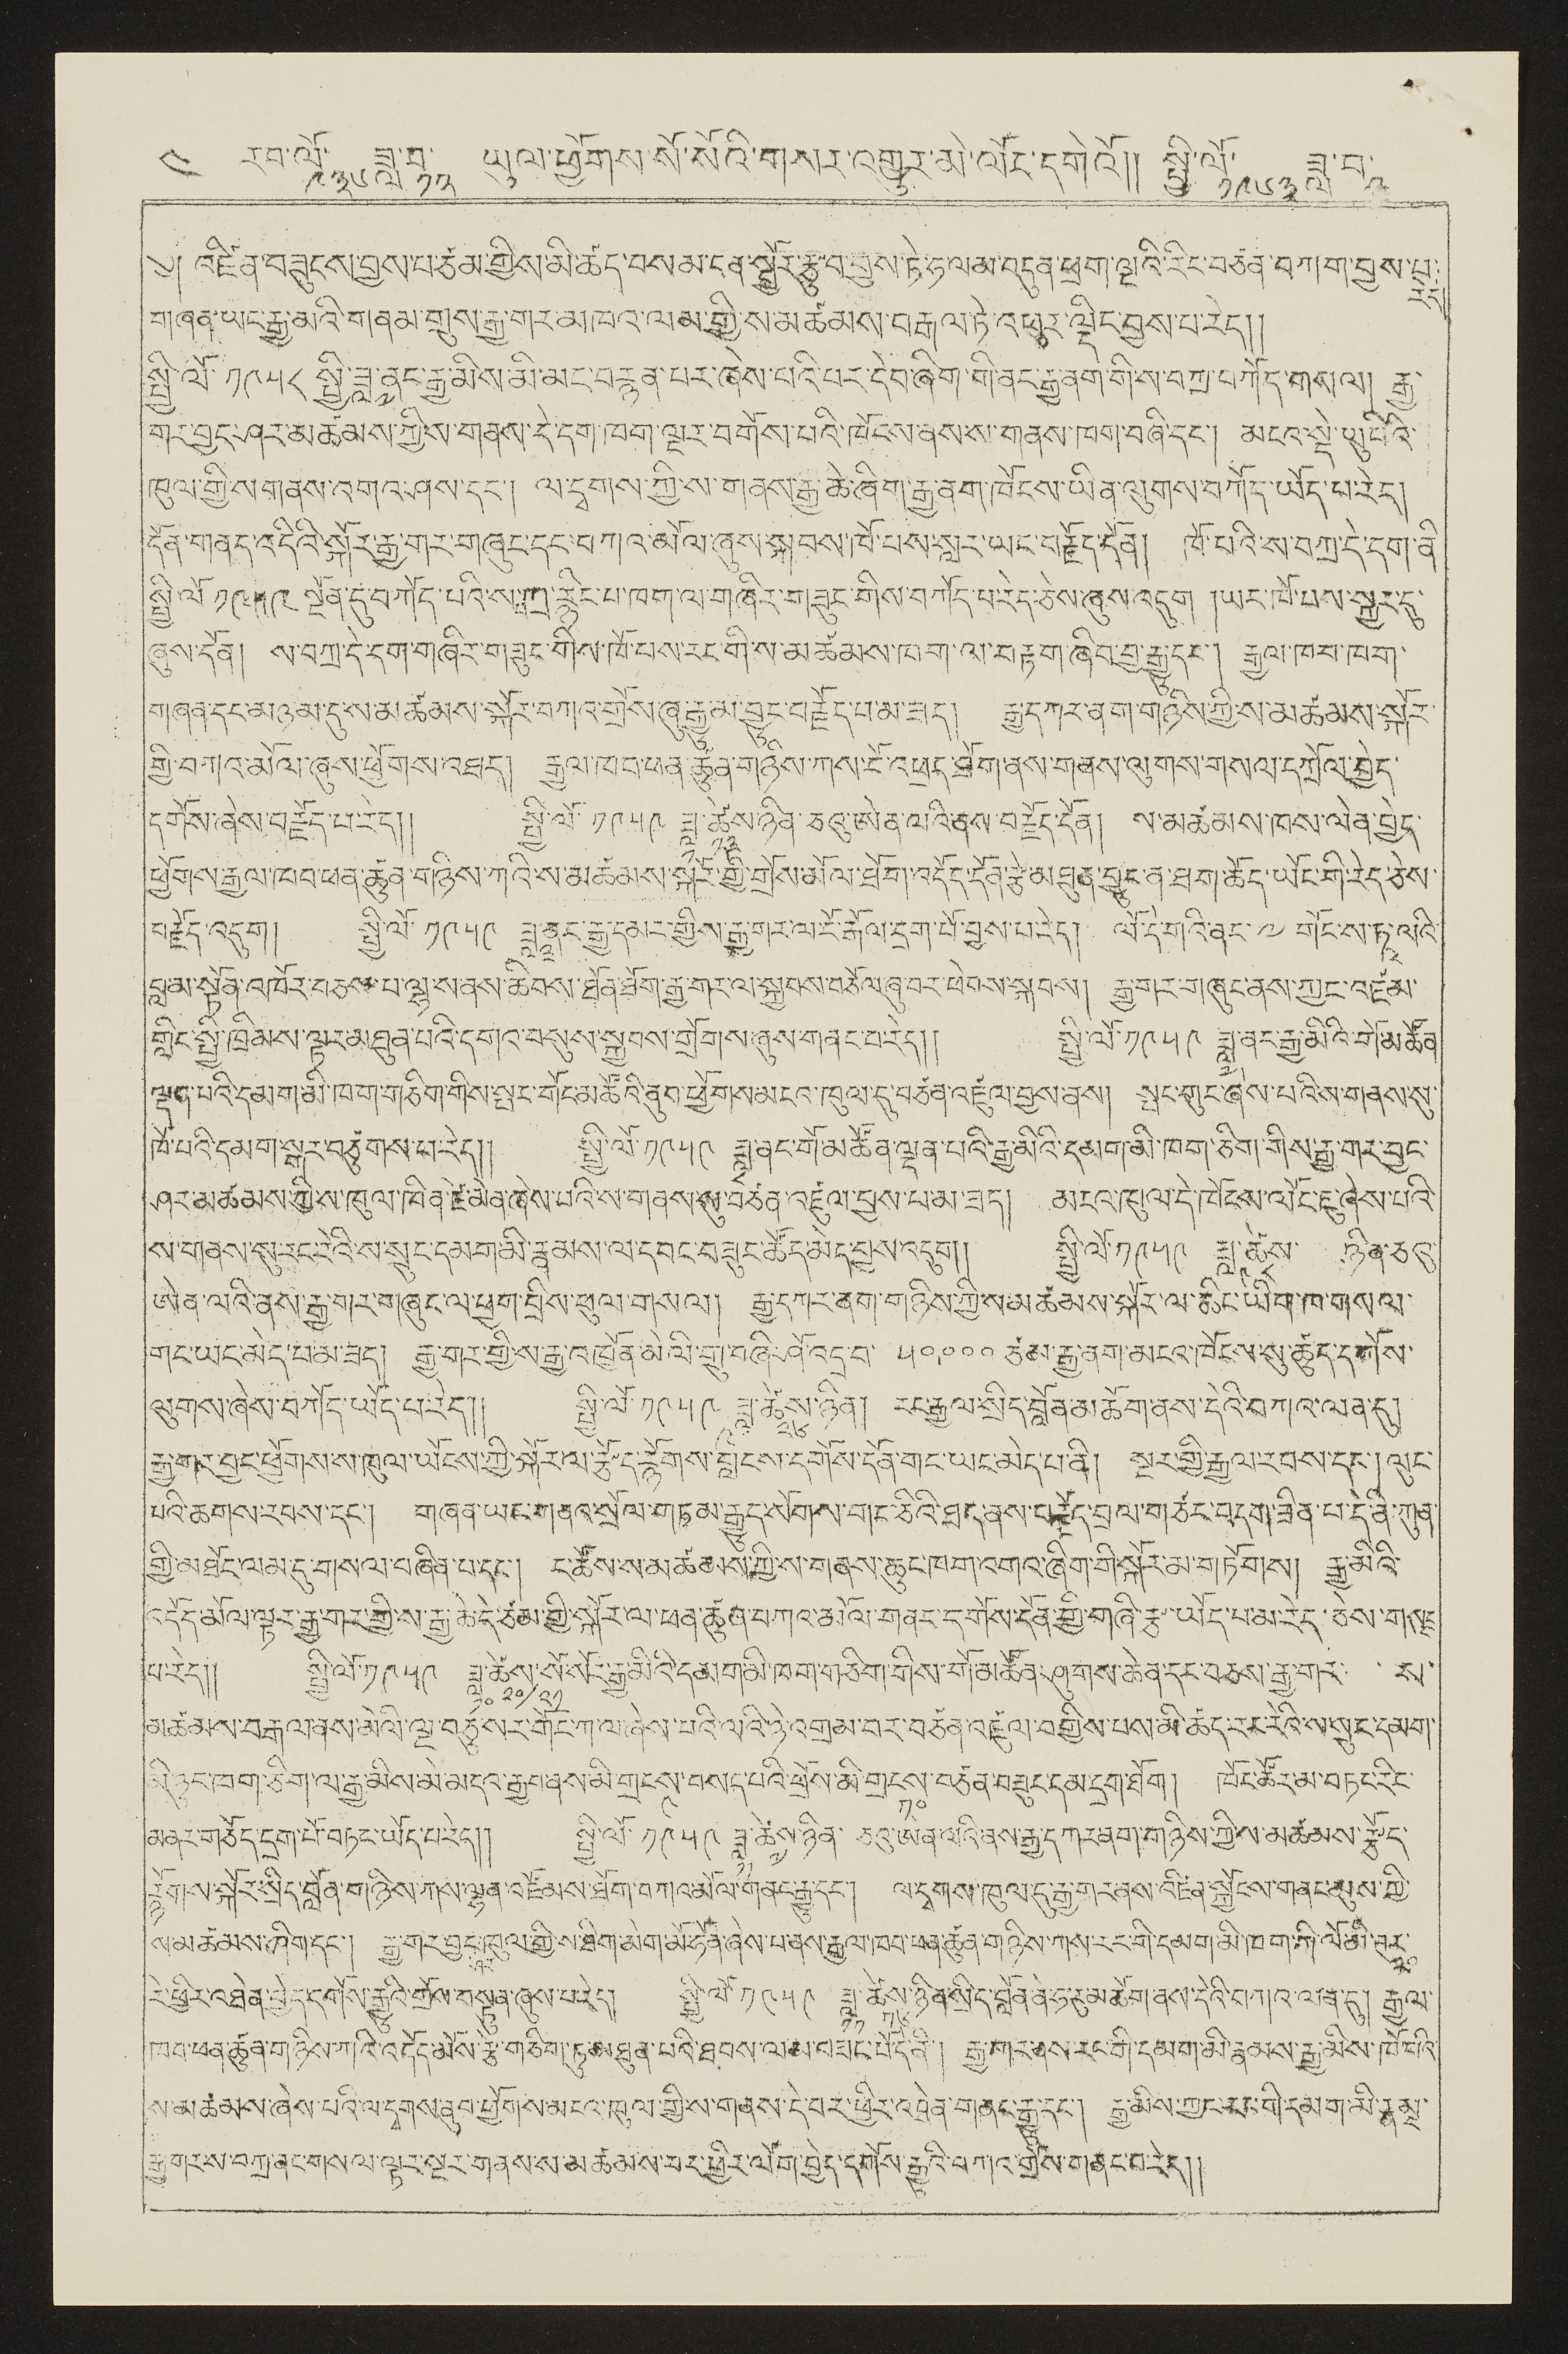༤ རབ་ལོ་
༩༣༦
ཟླ་བ་
༡༢
ཡུལ་ཕྱོགས་སོ་སོའི་གསར་འགྱུར་མེ་ལོང་དགེའོ།། སྤྱི་ལོ་
༡༩༦༣
ཟླ་བ་
༢
༄། འཛིན་བཟུངས་བྱས་ལ་ཙམ་གྱིས་མི་ཚད་བས་མ་ངན་སྦྱོར་རྩུ་བ་བྱས་ཏེ་ཧ་ལམ་བདུན་ཕྲག་ལྔའི་རིང་བཙན་བཀག་བྱས་པ་
རེད་
གཞན་ཡང་རྒྱ་མའི་གནམ་གྲུས་རྒྱ་གར་མཁའ་ལམ་གྱི་ས་མཚམས་བརྒལ་ཏེ་འཕུར་ལྡིང་བྱས་པ་རེད།།
སྤྱི་ལོ་ ༡༩༥༨ སྤྱི་ཟླ་
༧
ནང་རྒྱ་མིས་མི་མང་བརྙན་པར་ཞེས་པའི་པར་དེབ་ཞིག་གི་ནང་རྒྱ་ནག་གི་ས་བཀྲ་བཀོད་གསལ། རྒྱ་
གར་བྱང་ཤར་མཚམས་ཀྱིས་གནས་དེ་དག་ཁག་ལྔར་བགོས་པའི་ཁོངས་ནས་ས་གནས་ཁག་བཞི་དང་། མངའ་སྡེ་ཡུཔིའི་
ཁུལ་གྱིས་གནས་འགའ་ཤས་དང་། ལ་དྭགས་ཀྱི་ས་གནས་རྒྱ་ཆེ་ཞིག་རྒྱ་ནག་ཁོངས་ཡིན་ལུགས་བཀོད་ཡོད་པ་རེད།
དོན་གནད་འདིའི་སྐོར་རྒྱ་གར་གཞུང་དང་བཀའ་མོལ་ཞུས་སྐབས་ཁོ་པས་སླར་ཡང་བརྗོད་དོན། ཁོ་པའི་ས་བཀྲ་དེ་དག་ནི་
སྤྱི་ལོ་ ༡༩༥༩ སྔོན་དུ་བཀོད་པའི་ས་བཀྲ་སྙིང་པ་ཁག་ལ་གཞིར་གཟུང་གིས་བཀོད་པ་རེད་ཅེས་ཞུས་འདུག །ཡང་ཁོ་པས་སྐྱར་དུ་
ཞུས་དོན། ས་བཀྲ་དེ་དག་གཞིར་གཟུང་གིས་ཁོ་པས་རང་གི་ས་མཚམས་ཁག་ལ་བརྟག་ཞིབ་བྱ་རྒྱུ་དང་། རྒྱལ་ཁབ་ཁག་
གཞན་དང་མཉམ་དུ་ས་མཚམས་སྐོར་བཀའ་གྲོས་ཞུ་རྒྱུ་མ་བྱུང་བརྗོད་པ་མ་ཟད། རྒྱ་དཀར་ནག་གཉིས་ཀྱི་ས་མཚམས་སྐོར་
གྱི་བཀའ་མོལ་ཞུས་ཕྱོགས་འཐད། རྒྱལ་ཁབ་ཕན་ཚུལ་གཉིས་ཀས་ངོ་འཕྲད་ཐོག་ནས་གནས་ལུགས་གསལ་དཀྲོལ་བྱེད་
དགོས་ཞེས་བརྗོད་པ་རེད།། སྤྱི་ལོ་ ༡༩༥༩ ཟླ་
༡
ཚེས་
༡༢
ཉིན་ཅའུ་ཨེན་ལའི་ནས་བརྗོད་དོན། ས་མཚམས་ཁས་ལེན་བྱེད་
ཕྱོགས་རྒྱལ་ཁབ་ཕན་ཚུན་གཉིས་ཀའི་ས་མཚམས་སྐོར་གྱི་གྲོས་མིལ་ཐོག་འདོད་དོན་རྩེ་མཐུན་བྱུང་ན་ཐག་ཆོད་ཡོང་གོ་རེད་ཅེས་
བརྗོད་འདུག། སྤྱི་ལོ་ ༡༩༥༩ ཟླ་
༣
ནང་རྒྱ་དམང་གྱིས་རྒྱ་གར་ལ་ངོ་རྒོལ་དྲག་པོ་བྱས་པ་རེད། ལོ་དེ་གའི་ནང་༸གོང་ས་ཏཱ་ལའི་
བླ་མ་སྟོན་འཁོར་བཅས་ལ་ལྷ་ས་ནས་ཆིབས་ཐོན་ཐོག་རྒྱ་གར་ལ་སྐྱབས་བཅོལ་ཞུ་བར་ཕེབས་སྐབས། རྒྱ་གར་གཞུང་ནས་ཀྱང་འཛམ་
གླིང་སྤྱི་ཁྲིམས་ལྟར་མཐུན་པའི་དགའ་བསུས་སྐྱབས་གྲོགས་ཞུས་གནང་བ་རེད།། སྤྱི་ལོ་ ༡༩༥༩ ཟླ་
༧
ནང་རྒྱ་མའི་གོ་མཚོན
ལྡན་པའི་དམག་མི་ཁག་གཅིག་གིས་སྤར་གོང་མཚོའི་ནུབ་ཕྱོགས་མངའ་ཁུལ་དུ་བཙན་འཛུལ་བྱས་ནས། སྤང་གུང་ཞེས་པའི་ས་གནས་སུ་
ཁོ་པའི་དམག་སྒར་བཙུགས་པ་རེད།། སྤྱི་ལོ་ ༡༩༥༩ ཟླ་
༨
ནང་གོ་མཚོན་ལྡན་པའི་རྒྱ་མིའི་དམག་མི་ཁག་ཅིག་གིས་རྒྱ་གར་བྱང་
ཤར་མཚམས་ཀྱི་ས་ཁུལ་ཁིན་ཛེ་མེན་ཞེས་པའི་ས་གནས་སུ་བཙན་འཛུལ་བྱས་པ་མ་ཟད། མངའ་ཁུལ་དེ་ཁོངས་ལོང་ཇུ་ཞེས་པའི་
ས་གནས་སུ་རང་རེའི་ས་སྲུང་དམག་མི་རྣམས་ལ་དབང་བཟུང་ཚོད་མེད་བྱས་འདུག། སྤིུ་ལོ་ ༡༩༥༩ ཟླ་
༩
ཚེས་
༨
ཉིན་ཅའུ་
ཨེན་ལའི་ནས་རྒྱ་གར་གཞུང་པ་ཕྱག་བྲིས་ཕུལ་གསལ། རྒྱ་དཀར་ནག་གཉིས་ཀྱི་ས་མཚམས་སྐོར་ལ་ཆིང་ཡིག་ཁ་གསལ་
གང་ཡང་མེད་པ་མ་ཟད། རྒྱ་གར་གྱི་ས་རྒྱ་འཁྱོན་མེ་ལི་གྲུ་བཞི་ཤི་འདྲ་བ་ ༥༠,༠༠༠ ཙམ་རྒྱ་ནག་མངའ་ཁོངས་སུ་ཚུད་དགོས་
ལུགས་ཞེས་བཀོད་ཡོད་པས་རེད།། སྤྱི་ལོ་ ༡༩༥༩ ཟླ་
༩
ཚེས་
༢༦
ཉིན། རང་རྒྱལ་སྲིད་བློན་མཆོག་ནས་དེའི་བཀའ་ལན་དུ།
རྒྱ་གར་བྱང་ཕྱོགས་ས་ཁུལ་ཡོངས་ཀྱི་སྐོར་ལ་རྩོད་རྙོགས་བླངས་དགོས་དོན་གང་ཡང་མེད་པ་ནི། སྔར་གྱི་རྒྱལ་རབས་དང་། ལུང་
པའི་ཆགས་རབས་དང་། གཞན་ཡང་གནའ་སྲོལ་གཏམ་རྒྱུད་སོགས་གང་ཅིའི་ཐད་ནས་བརྗེད་བྲལ་གཙང་བདག་ཟིན་པ་དེ་ནི་ཀུན་
གྱི་མཐོང་ལན་དུ་གསལ་བཞིན་པ་དང་། ང་ཚོས་ས་མཚམས་ཀྱི་ས་གནས་ཆུང་ཁག་འགའ་ཞིག་གི་སྐོར་མ་གཏོགས། རྒྱ་མིའི་
འདོད་མོལ་ལྟར་རྒྱ་གར་གྱིས་རྒྱ་ཆེ་དེ་ཙམ་གྱི་སྐོར་ལ་ཕན་ཚུན་བཀའ་མོལ་གནང་དགོས་དོན་གྱི་གཞི་རྩ་ཡོད་པ་མ་རེད་ཅེས་གསུངས
པ་རེད།། སྤྱི་ལོ་ ༡༩༥༩ ཟླ་
༡༠
ཚེས་
༢༠/༢༡
སོ་སོར་རྒྱ་མིའི་དམག་མི་ཁག་གཅིག་གིས་གོ་མཚོན་ཤུགས་ཆེན་དང་བཅས་རྒྱ་གར་ ས་
མཚམས་བརྒལ་ནས་མེལི་ལྔ་བཅུ་སར་གོང་ཀ་ལ་ཞེས་པའི་ལའི་ཉེ་འགྲམ་བར་བཙན་འཛུལ་བགྱིས་པས་མི་ཚད་རང་རེའི་ས་སྲུང་དམག་
མི་ཉུང་ཁག་ཅིག་ལ་རྒྱ་མིས་མེ་མདའ་རྒྱབ་ནས་མི་གྲངས་
༩
བསད་པའི་འཕྲོས་མི་གྲངས་
༡༠
བཙན་བཟུང་དམ་དྲག་ཐོག། ཁོང་ཚོར་མ་བཏང་རིང་
མནར་གཅོད་དྲག་པོ་བཏང་ཡོད་པ་རེད།། སྤྱི་ལོ་ ༡༩༥༩ ཟླ་
༡༡
ཚེས་
༧
ཉིན་ ཅའུ་ཨེན་ལའི་ནས་རྒྱ་དཀར་ནག་གཉིས་ཀྱིས་མཚམས་རྩོད་
རྙོགས་སྐོང་སྲིད་བློན་གཉིས་ཀས་ལྷག་འཛོམས་ཐོག་བཀའ་མོལ་གནང་རྒྱུ་དང་། ལ་དྭགས་ཁུལ་དུ་རྒྱ་གར་ནས་འཛིན་སྐྱོངས་གནང་མུས་ཀྱི་
ས་མཚམས་ཤིག་དང་། རྒྱ་གར་བྱང་
ཤར་
ཁུལ་གྱི་ས་ཐིག་མེག་མོ་ཧེན་ཞེས་པ་ནས་རྒྱལ་ཁབ་ཕན་ཚུལ་གཉིས་ཀས་རང་གི་དམག་མི་ཁག་གི་ལོ་མི་ཊར་
༢༠
རེ་ཕྱིར་འཐེན་བྱེད་དགོས་རྒྱུའི་གྲོས་བསྟུན་ཞུས་པ་རེད། སྤྱི་ལོ་ ༡༩༥༩ ཟླ་
༡༡
ཚེས་
༡༦
ཉིན་སྲིད་བློན་ནེ་ཧ་རུ་མཆོག་ནས་དེའི་བཀའ་ལན་དུ། རྒྱལ་
ཁབ་ཕན་ཚུན་གཉིས་ཀའི་འདོད་མོས་རྩེ་གཅིག་ཏུ་མཐུན་པའི་ཐབས་ལམ་བཟང་པོ་དེ་ནི། རྒྱ་གར་ནས་རང་གི་དམག་མི་རྣམས་རྒྱ་མིས་ཁོ་པའི་
ས་མཚམས་ཞེས་པའི་ལ་དྭགས་ནུབ་ཕྱོགས་མངའ་ཁུལ་གྱི་ས་གནས་དེ་བར་ཕྱིར་འཐེན་གནང་རྒྱུ་དང་། རྒྱ་མིས་ཀྱང་རང་གི་དམག་མི་རྣམས་
རྒྱ་གར་ས་བཀྲ་ནང་གསལ་ལྟར་སྔར་གནས་ས་མཚམས་བར་ཕྱིར་ལོག་བྱེད་དགོས་རྒྱུའི་བཀའ་གྲོས་གནང་བ་རེད།།
